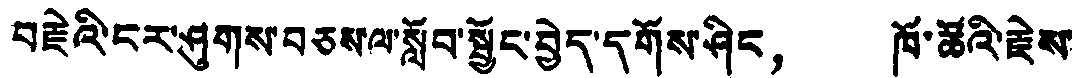བརྗེའི་ངར་ཤུགས་བཅས་ལ་སློབ་སྦྱོང་བྱེད་དགོས་ཤིང， ཁོ་ཚོའི་རྗེས་
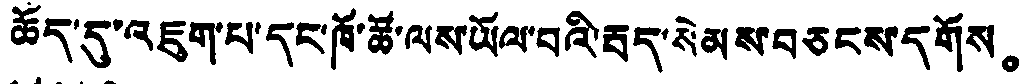ཆོད་དུ་འཇུག་པ་དང་ཁོ་ཚོ་ལས་ཡོལ་བའི་རྦད་སེམས་བཅངས་དགོས。
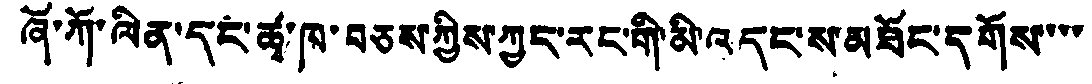ཞོ་ཀོ་ལིན་དང་ཚྭ་ཁ་བཅས་ཀྱིས་ཀྱང་རང་གི་མི་འདང་ས་མཐོང་དགོས་་་་
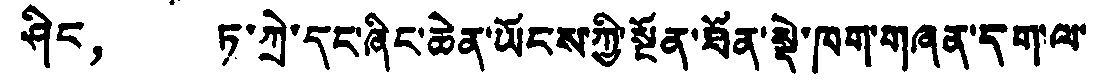ཤིང， ཏ་ཀྲེ་དང་ཞིང་ཆེན་ཡོངས་ཀྱི་སྔོན་ཐོན་སྡེ་ཁག་གཞན་དག་ལ་
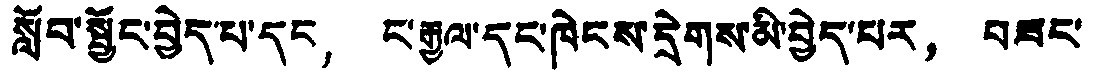སློབ་སྦྱོང་བྱེད་པ་དང， ང་རྒྱལ་དང་ཁེངས་དྲེགས་མི་བྱེད་པར， བཟང་
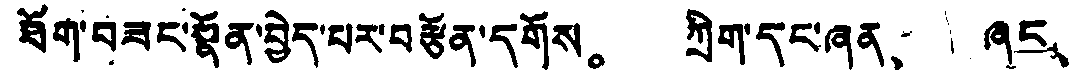ཐོག་བཟང་སྣོན་བྱེད་པར་བརྩོན་དགོས。 ཀྲིག་དང་ཞན、 ཞང
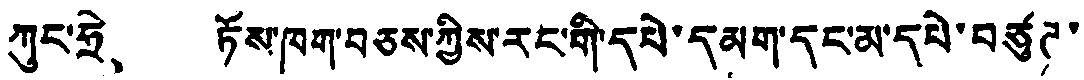ཀུང་ཧྲེ、 ཏོས་ཁག་བཅས་ཀྱིས་རང་གི་དཔེ་དམག་དང་མ་དཔེ་བཙུཊ་
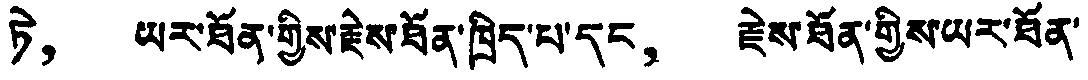ཏེ， ཡར་ཐོན་གྱིས་རྗེས་ཐོན་ཁྲིད་པ་དང， རྗེས་ཐོན་གྱིས་ཡར་ཐོན་
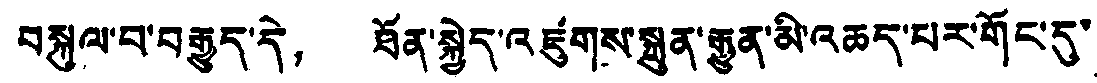བསྐུལ་བ་བརྒྱུད་དེ， ཐོན་སྐྱེད་འཛུགས་སྐྲུན་རྒྱུན་མི་འཆད་པར་གོང་དུ་
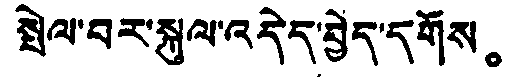སྤེལ་བར་སྐུལ་འདེད་བྱེད་དགོས。
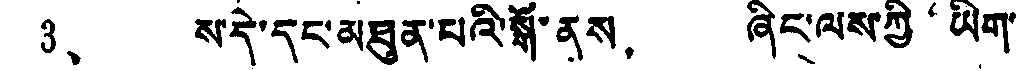3、 ས་དེ་དང་མཐུན་པའི་སྒོ་ནས， ཞིང་ལས་ཀྱི་“ཡིག་
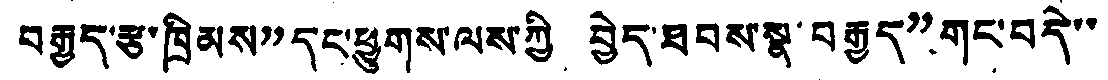བརྒྱད་རྩ་ཁྲིམས་”དང་ཕྱུགས་ལས་ཀྱི བྱེད་ཐབས་སྣ་བརྒྱད་”གང་བདེ་་
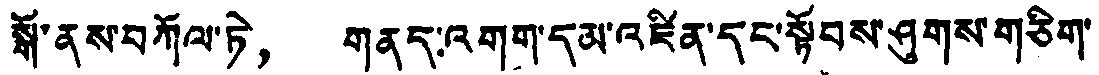སྒོ་ནས་བཀོལ་ཏེ， གནད་འགག་དམ་འཛིན་དང་སྟོབས་ཤུགས་གཅིག་
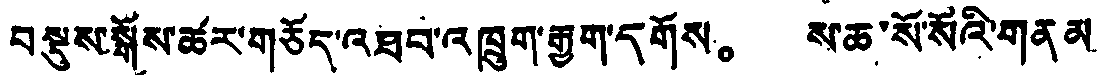བསྡུས་སྒོས་ཚར་གཅོད་འཐབ་འཁྲུག་རྒྱུག་དགོས。 ས་ཆ་སོ་སོའི་གནམ
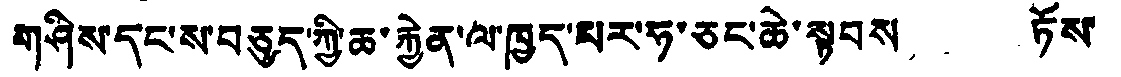གཤིས་དང་ས་བཅུད་ཀྱི་ཆ་རྐྱེན་ལ་ཁྱད་པར་ཧ་ཅང་ཆེ་སྟབས ཏོས་
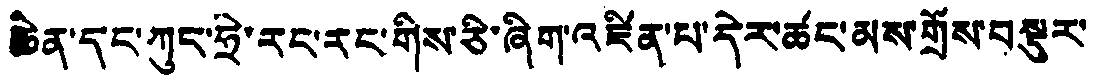ཆེན་དང་ཀུང་ཧྲེ་རང་རང་གིས་ཅི་ཞིག་འཛིན་པ་དེར་ཚང་མས་གྲོས་བསྡུར་
